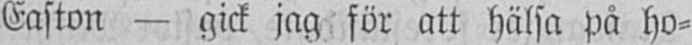Easton — gick jag för att hälsa på ho-
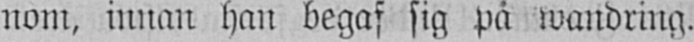nom, innan han begaf sig på wandring.
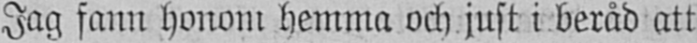Jag fann honom hemma och just i beråd att
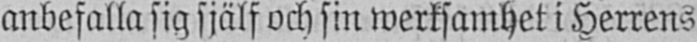anbefalla sig själf och sin werksamhet i Herrens
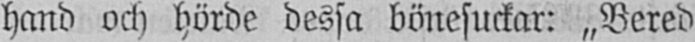hand och hörde dessa bönesuckar: „Bered
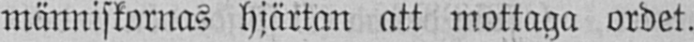människornas hjärtan att mottaga ordet.
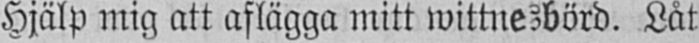Hjälp mig att aflägga mitt wittnesbörd. Låt
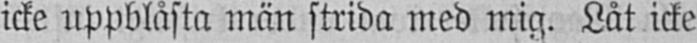icke uppblåsta män strida med mig. Låt icke
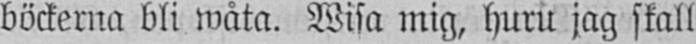böckerna bli wåta. Wisa mig, huru jag skall
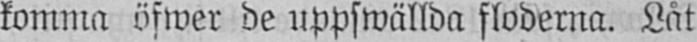komma öfwer de uppswällda floderna. Låt
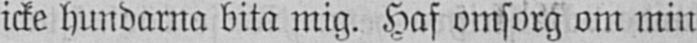icke hundarna bita mig. Haf omsorg om min
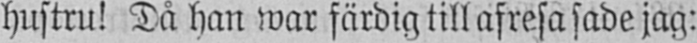hustru! Då han war färdig till afresa sade jag:
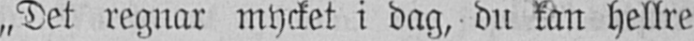„Det regnar mycket i dag, du kan hellre
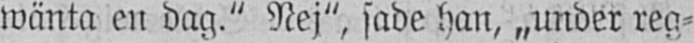wänta en dag." Nej", sade han, „under reg-
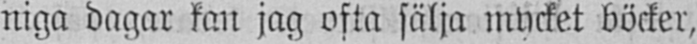niga dagar kan jag ofta sälja mycket böcker,
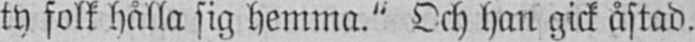ty folk hålla sig hemma." Och han gick åstad.
